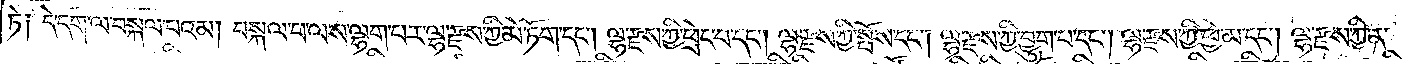ཏེ༑ དེ་དག་ལ་བསྐལ་པའམ། བསྐལ་པའི་ལྷག་མར་ལྷ་རྫས་ཀྱི་མེ་ཏོག་དང༌། ལྷ་རྫས་ཀྱི་ཕྲེང་བ་དང༌། ལྷ་རྫས་ཀྱི་སྤོས་དང༌། ལྷ་རྫས་ཀྱི་བྱུག་པ་དང༌། ལྷ་རྫས་ཀྱི་ཕྱེ་མ་དང༌། ལྷ་རྫས་ཀྱི་ན་
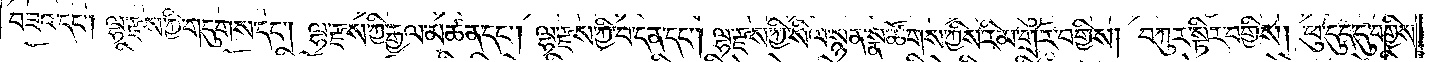བཟའ་དང༌། ལྷ་རྫས་ཀྱི་གདུགས་དང༌། ལྷ་རྫས་ཀྱི་རྒྱལ་མཚན་དང༌། ལྷ་རྫས་ཀྱི་བ་དན་དང༌། ལྷ་རྫས་ཀྱི་སིལ་སྙན་སྣ་ཚོགས་ཀྱིས་རིམ་གྲོར་བགྱིས། བཀུར་སྟིར་བགྱིས། ཕུ་དུད་དུ་བགྱིས།
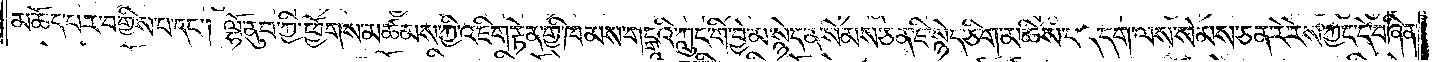མཆོད་པར་བགྱིས་པ་དང༌། ལྷོ་ནུབ་ཀྱི་ཕྱོགས་མཚམས་ཀྱི་འཇིག་རྟེན་གྱི་ཁམས་གངྒཱའི་ཀླུང་གི་བྱེ་མ་སྙེད་ན་སེམས་ཅན་ཇི་སྙེད་ཅིག་མཆིས་པ་དེ་དག་ལས་སེམས་ཅན་རེ་རེས་ཀྱང་དེ་བཞིན་
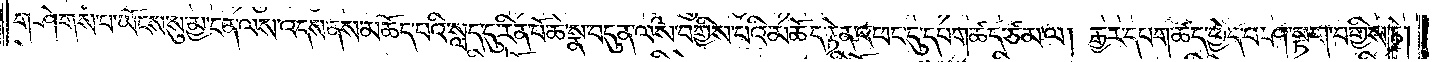གཤེགས་པ་ཡོངས་སུ་མྱ་ངན་ལས་འདས་ནས་མཆོད་པའི་སླད་དུ་རིན་པོ་ཆེ་སྣ་བདུན་ལས་བགྱིས་པའི་མཆོད་རྟེན་འཕང་དུ་དཔག་ཚད་ཙམ་ལ། རྒྱར་དཔག་ཚད་ཕྱེད་པ་ཤ་སྟག་བགྱིས་ཏེ།
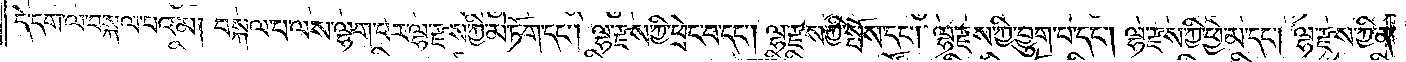དེ་དག་ལ་བསྐལ་པའམ། བསྐལ་པ་ལས་ལྷག་པར་ལྷ་རྫས་ཀྱི་མེ་ཏོག་དང༌། ལྷ་རྫས་ཀྱི་ཕྲེང་བ་དང༌། ལྷ་རྫས་ཀྱི་སྤོས་དང༌། ལྷ་རྫས་ཀྱི་བྱུག་པ་དང༌། ལྷ་རྫས་ཀྱི་ཕྱེ་མ་དང༌། ལྷ་རྫས་ཀྱི་ན་
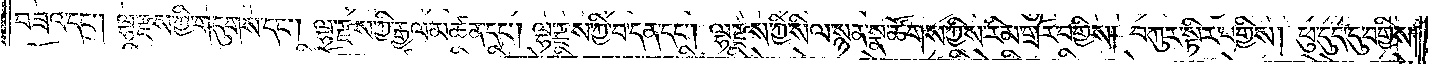བཟའ་དང༌། ལྷ་རྫས་ཀྱི་གདུགས་དང༌། ལྷ་རྫས་ཀྱི་རྒྱལ་མཚན་དང༌། ལྷ་རྫས་ཀྱི་བ་དན་དང༌། ལྷ་རྫས་ཀྱི་སིལ་སྙན་སྣ་ཚོགས་ཀྱིས་རིམ་གྲོར་བགྱིས། བཀུར་སྟིར་བགྱིས། ཕུ་དུད་དུ་བགྱིས།
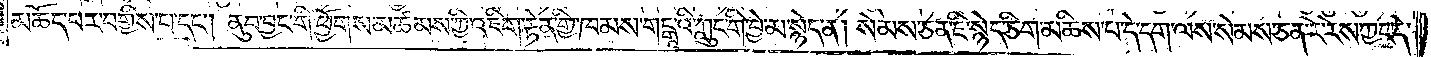མཆོད་པར་བགྱིས་པ་དང༌། ནུབ་བྱང་གི་ཕྱོགས་མཚམས་ཀྱི་འཇིག་རྟེན་གྱི་ཁམས་གངྒཱའི་ཀླུང་གི་བྱེ་མ་སྙེད་ན། སེམས་ཅན་ཇི་སྙེད་ཅིག་མཆིས་པ་དེ་དག་ལས་སེམས་ཅན་རེ་རེས་ཀྱང་དེ་
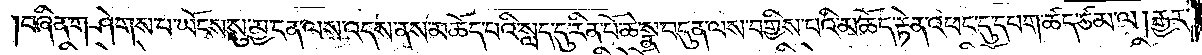བཞིན་གཤེགས་པ་ཡོངས་སུ་མྱ་ངན་ལས་འདས་ནས་མཆོད་པའི་སླད་དུ་རིན་པོ་ཆེ་སྣ་བདུན་ལས་བགྱིས་པའི་མཆོད་རྟེན་འཕང་དུ་དཔག་ཚད་ཙམ་ལ། རྒྱར་
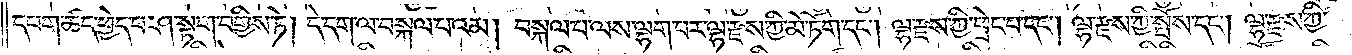དཔག་ཚད་ཕྱེད་པ་ཤ་སྟག་བགྱིས་ཏེ། དེ་དག་ལ་བསྐལ་པའམ། བསྐལ་བའི་ལྷག་པར་ལྷ་རྫས་ཀྱི་མེ་ཏོག་དང༌། ལྷ་རྫས་ཀྱི་ཕྲེང་བ་དང༌། ལྷ་རྫས་ཀྱི་སྤོས་དང༌། ལྷ་རྫས་ཀྱི་
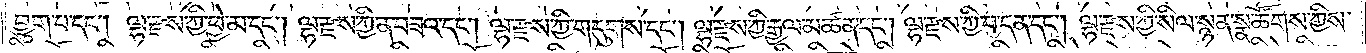བྱུག་པ་དང༌། ལྷ་རྫས་ཀྱི་ཕྱེ་མ་དང༌། ལྷ་རྫས་ཀྱི་ན་བཟའ་དང༌། ལྷ་རྫས་ཀྱི་གདུགས་དང༌། ལྷ་རྫས་ཀྱི་རྒྱལ་མཚན་དང༌། ལྷ་རྫས་ཀྱི་བ་དན་དང༌། ལྷ་རྫས་ཀྱི་སིལ་སྙན་སྣ་ཚོགས་ཀྱིས་
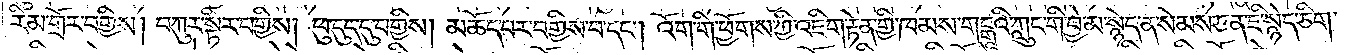རིམ་གྲོར་བགྱིས། བཀུར་སྟིར་བགྱིས། ཕུ་དུད་དུ་བགྱིས། མཆོད་པར་བགྱིས་པ་དང༌། འོག་གི་ཕྱོགས་ཀྱི་འཇིག་རྟེན་གྱི་ཁམས་གངྒཱའི་ཀླུང་གི་བྱེ་མ་སྙད་ན་སེམས་ཅན་ཇི་སྙེད་ཅིག་
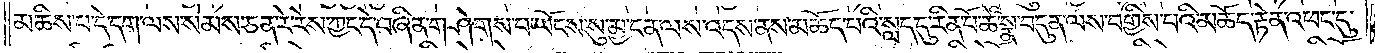མཆིས་པ་དེ་དག་ལས་སེམས་ཅན་རེ་རེས་ཀྱང་དེ་བཞིན་གཤེགས་པ་ཡོངས་སུ་མྱ་ངན་ལས་འདས་ནས་མཆོད་པའི་སླད་དུ་རིན་པོ་ཆེ་སྣ་བདུན་ལས་བགྱིས་པའི་མཆོད་རྟེན་འཕང་དུ་
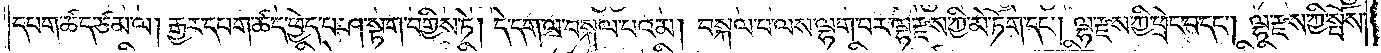དཔག་ཚད་ཙམ་ལ། རྒྱར་དཔག་ཚད་ཕྱེད་པ་ཤ་སྟག་བགྱིས་ཏེ། དེ་དག་ལ་བསྐལ་པའམ། བསྐལ་པ་ལས་ལྷག་པར་ལྷ་རྫས་ཀྱི་མེ་ཏོག་དང༌། ལྷ་རྫས་ཀྱི་ཕྲེང་བ་དང༌། ལྷ་རྫས་ཀྱི་སྤོས་
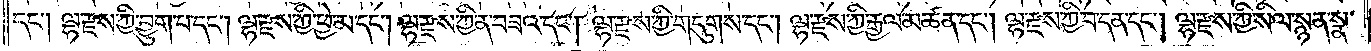དང༌། ལྷ་རྫས་ཀྱི་བྱུག་པ་དང༌། ལྷ་རྫས་ཀྱི་ཕྱེ་མ་དང༌། ལྷ་རྫས་ཀྱི་ན་བཟའ་དང༌། ལྷ་རྫས་ཀྱི་གདུགས་དང༌། ལྷ་རྫས་ཀྱི་རྒྱལ་མཚན་དང༌། ལྷ་རྫས་ཀྱི་བ་དན་དང༌། ལྷ་རྫས་ཀྱི་སིལ་སྙན་སྣ་
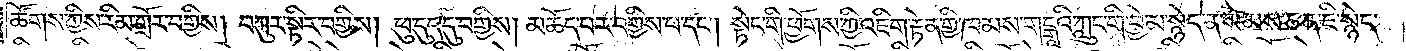ཚོགས་ཀྱིས་རིམ་གྲོར་བགྱིས། བཀུར་སྟིར་བགྱིས། ཕུ་དུད་དུ་བགྱིས། མཆོད་པར་བགྱིས་པ་དང༌། སྟེང་གི་ཕྱོགས་ཀྱི་འཇིག་རྟེན་གྱི་ཁམས་གངྒཱའི་ཀྲུང་གི་བྱེ་མ་སྙེད་ན་སེམས་ཅན་ཇི་སྙེད་
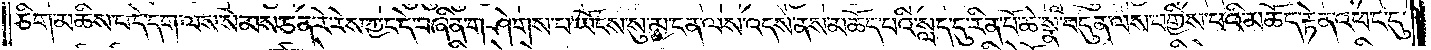ཅིག་མཆིས་པ་དེ་དག་ལས་སེམས་ཅན་རེ་རེས་ཀྱང་དེ་བཞིན་གཤེགས་པ་ཡོངས་སུ་མྱ་ངན་ལས་འདས་ནས་མཆོད་པའི་སླད་དུ་རིན་པོ་ཆེ་སྣ་བདུན་ལས་བགྱིས་པའི་མཆོད་རྟེན་འཕང་དུ་
